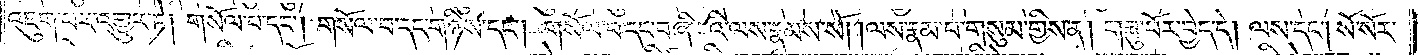འཇུག་པར་འགྱུར་ཏེ། གསོལ་བ་དང༌། གསོལ་བ་དང་གཉིས་དང༌། གསོལ་བ་དང་བཞི་པའི་ལས་རྣམས་སོ། །ལས་རྣམ་པ་གསུམ་གྱིས་ན། གཟུ་བོར་བྱེད་དེ། ལས་དང༌། སོ་སོར་
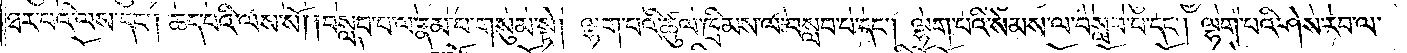ཐར་པའི་ལས་དང༌། ཆད་པའི་ལས་སོ། །བསླབ་པ་ལ་རྣམ་པ་གསུམ་སྟེ། ལྷག་པའི་ཚུལ་ཁྲིམས་ལ་བསླབ་པ་དང༌། ལྷག་པའི་སེམས་ལ་བསླབ་པ་དང༌། ལྷག་པའི་ཤེས་རབ་ལ་
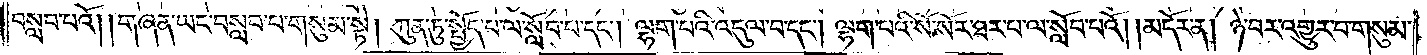བསླབ་པའོ། །གཞན་ཡང་བསླབ་པ་གསུམ་སྟེ། ཀུན་ཏུ་སྤྱོད་པ་ལ་སློབ་པ་དང༌། ལྷག་པའི་འདུལ་བ་དང༌། ལྷག་པའི་སོ་སོར་ཐར་པ་ལ་སློབ་པའོ།    །མདོར་ན། ཉེ་བར་འགྱུར་བ་གསུམ་
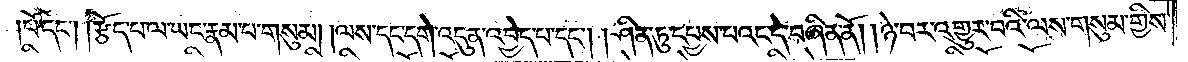པོ་དང༌། །རྩོད་པ་ལ་ཡང་རྣམ་པ་གསུམ། །ལས་དང་དགེ་འདུན་འབྱེད་པ་དང༌། །ཤིན་ཏུ་དཔྱས་པའང་དེ་བཞིན་ནོ། །ཉེ་བར་འགྱུར་བའི་ལས་གསུམ་གྱིས་
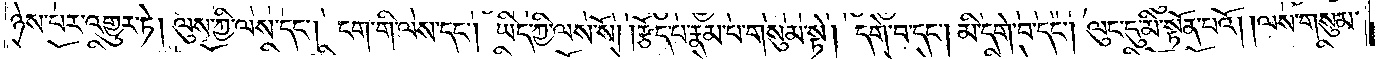ཉེས་པར་འགྱུར་ཏེ། ལུས་ཀྱི་ལས་དང༌། ངག་གི་ལས་དང༌། ཡིད་ཀྱི་ལས་སོ། །རྩོད་པ་རྣམ་པ་གསུམ་སྟེ། དགེ་བ་དང༌། མི་དགེ་བ་དང༌། ལུང་དུ་མི་སྟོན་པའོ། །ལས་གསུམ་
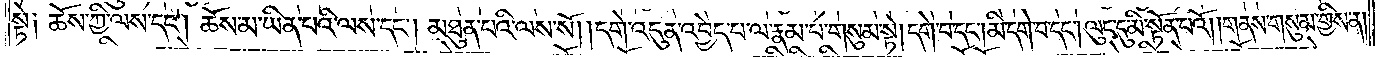སྟེ༑ ཆོས་ཀྱི་ལས་དང༌། ཆོས་མ་ཡིན་པའི་ལས་དང༌། མཐུན་པའི་ལས་སོ། །དགེ་འདུན་འབྱེད་པ་ལ་རྣམ་པ་གསུམ་སྟེ། དགེ་བ་དང༌། མི་དགེ་བ་དང༌། ལུང་དུ་མི་སྟོན་པའོ། །གནས་གསུམ་གྱིས་ན།
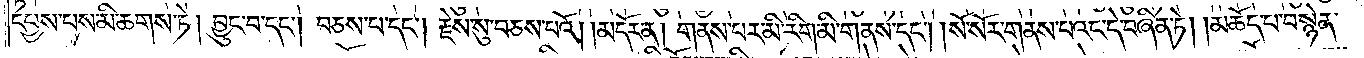དཔྱས་པས་མི་ཆགས་ཏེ། བྱུང་བ་དང༌། བཅས་པ་དང༌། རྗེས་སུ་བཅས་པའོ། །མདོར་ན། གནས་པར་མི་རིག་མི་གནས་དང༌། །སོ་སོར་གནས་པའང་དེ་བཞིན་ཏེ། །མཆོད་པ་བསྙེན་
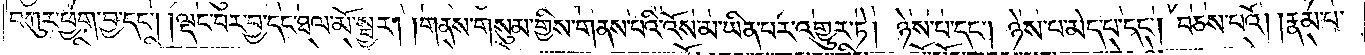བཀུར་ཕྱག་བྱ་དང༌། །ལྡང་བར་བྱ་དང་ཐལ་མོ་སྦྱར། །གནས་གསུམ་གྱིས་གནས་པའི་འོས་མ་ཡིན་པར་འགྱུར་ཏེ། ཉེས་པ་དང༌། ཉེས་པ་མེད་པ་དང༌། བཅས་པའོ། །རྣམ་པ་
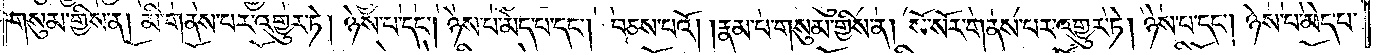གསུམ་གྱིས་ན། མི་གནས་པར་འགྱུར་ཏེ། ཉེས་པ་དང༌། ཉེས་པ་མེད་པ་དང༌། བཅས་པའོ། །རྣམ་པ་གསུམ་གྱིས་ན། སོ་སོར་གནས་པར་འགྱུར་ཏེ། ཉེས་པ་དང༌། ཉེས་པ་མེད་པ་
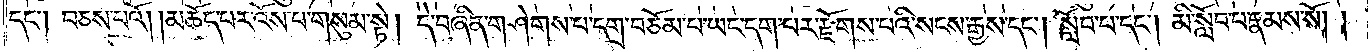དང༌། བཅས་པའོ། །མཆོད་པར་འོས་པ་གསུམ་སྟེ། དེ་བཞིན་གཤེགས་པ་དགྲ་བཅོམ་པ་ཡང་དག་པར་རྫོགས་པའི་སངས་རྒྱས་དང༌། སློབ་པ་དང༌། མི་སློབ་པ་རྣམས་སོ། །
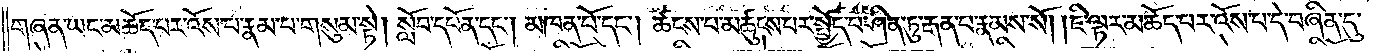གཞན་ཡང་མཆོད་པར་འོས་པ་རྣམ་པ་གསུམ་སྟེ། སློབ་དཔོན་དང༌། མཁན་པོ་དང༌། ཚངས་པ་མཚུངས་པར་སྤྱོད་པ་ཤིན་ཏུ་རྒན་པ་རྣམས་སོ། །ཇི་ལྟར་མཆོད་པར་འོས་པ་དེ་བཞིན་དུ་
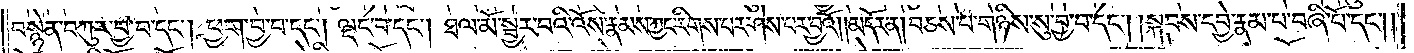བསྙེན་བཀུར་བྱ་བ་དང༌། ཕྱག་བྱ་བ་དང༌། ལྡང་བ་དང༌། ཐལ་མོ་སྦྱར་བའི་འོས་རྣམས་ཀྱང་རིགས་པར་ཤེས་པར་བྱའོ། །མདོར་ན། བཅས་པ་གཉིས་སུ་བྱ་བ་དང༌། །སྐབས་དབྱེ་རྣམ་པ་བཞི་པོ་དང༌། །
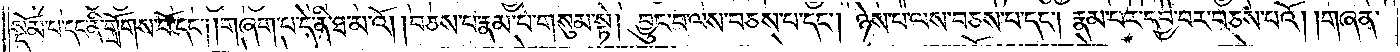སྡོམ་པ་དང་ནི་གྲོགས་པོ་དང༌། །གཞག་པ་དེ་ནི་ཐ་མའོ། །བཅས་པ་རྣམ་པ་གསུམ་སྟེ། བྱུང་བ་ལས་བཅས་པ་དང༌། ཉེས་པ་ལས་བཅས་པ་དང༌། རྣམ་པར་དབྱེ་བར་བཅས་པའོ། །གཞན་
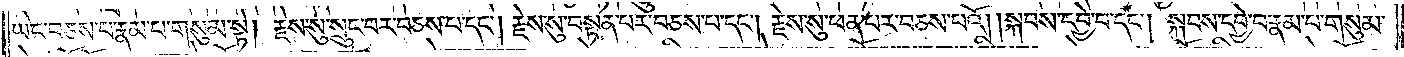ཡང་བཅས་པ་རྣམ་པ་གསུམ་སྟེ། རྗེས་སུ་སྲུང་བར་བཅས་པ་དང༌། རྗེས་སུ་བསྟན་པར་བཅས་པ་དང༌། རྗེས་སུ་ཕན་པར་བཅས་པའོ། །སྐབས་དབྱེ་བ་དང༌། སྐབས་དབྱེ་བ་རྣམ་པ་གསུམ་
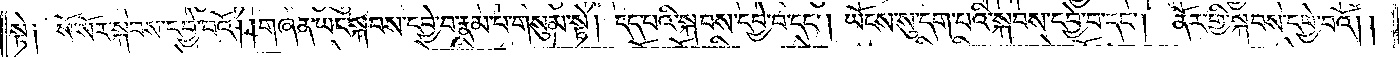སྟེ༑ སོ་སོར་སྐབས་དབྱེ་བའོ། །གཞན་ཡང་སྐབས་དབྱེ་བ་རྣམ་པ་གསུམ་སྟེ། དད་པའི་སྐབས་དབྱེ་བ་དང༌། ཡོངས་སུ་དག་པའི་སྐབས་དབྱེ་བ་དང༌། ནོར་གྱི་སྐབས་དབྱེ་བའོ། །
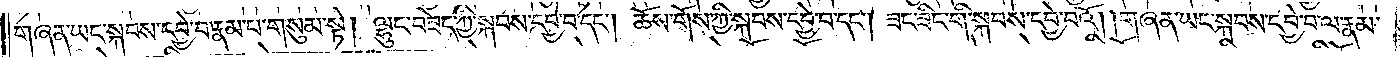གཞན་ཡང་སྐབས་དབྱེ་བ་རྣམ་པ་གསུམ་སྟེ། ལྷུང་བཟེད་ཀྱི་སྐབས་དབྱེ་བ་དང༌། ཆོས་གོས་ཀྱི་སྐབས་དབྱེ་བ་དང༌། ཟང་ཟིང་གི་སྐབས་དབྱེ་བའོ། །གཞན་ཡང་སྐབས་དབྱེ་བ་ལ་རྣམ་
